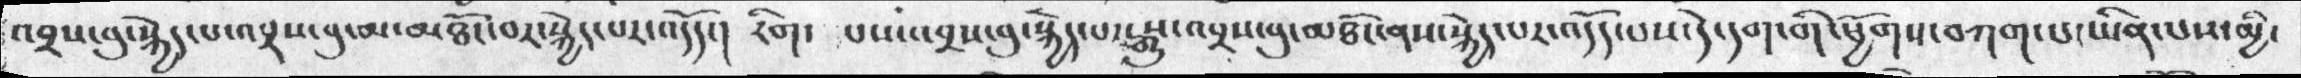འབྲས་བུ་སྐྱེད་པ་འབྲས་བུ་མ་མཐོང་བར་སྐྱེད་པར་འདོད་། རིག་  པས་འབྲས་བུ་སྐྱེད་པ་རྒྱུས་འབྲས་བུ་མཐོང་ནས་སྐྱེད་པར་འདོད་པས་དེ་དག་གི་ཕྱོགས་བཀག་པ་ཡིན་པས་མྱི་
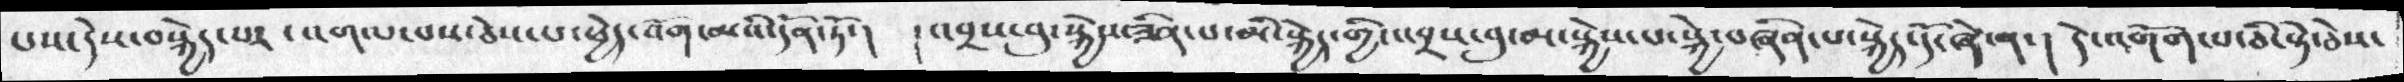པས་དེས་བསྐྱེད་པར་ འགལ་བས་ཅེས་པ་ཕྱེད་འོག་མའི་དོན་ཏོ་། །འབྲས་བུ་སྐྱེས་ཟིན་པ་མི་སྐྱེད་གྱི་འབྲས་བུ་མ་སྐྱེས་པ་སྐྱེ་བཞིན་པ་སྐྱེད་དོ་ཞེ་ན་། དེ་འགོག་པ་ཅི་སྟེ་ཅེས་
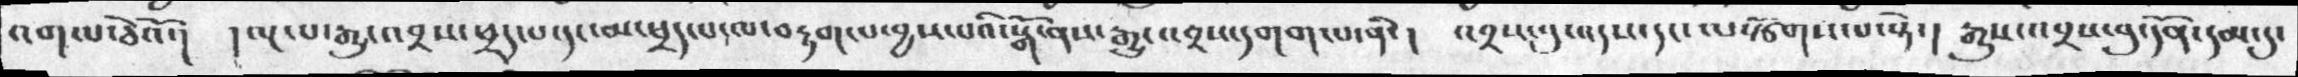འགལ་ཅེའོ་།  །ལྔ་པ་རྒྱུ་འབྲས་ཕྲད་པ་དང་མ་ཕྲད་པ་ལ་བརྟག་པ་བྱས་པའི་སྒོ་ནས་རྒྱུ་འབྲས་དགག་པ་ནི་།  འབྲས་བུ་འདས་དང་ལསྩོགས་པ་སྟེ་། རྒྱུས་འབྲས་བུ་དོན་དམ་དུ་
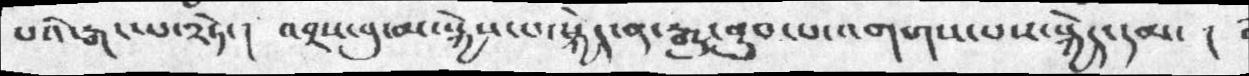པའི་རྒང་པ་༢ཏེ་།  འབྲས་བུ་མ་སྐྱེས་པ་སྐྱེད་ན་རྒྱུ་ནུབ་པ་འགགས་པས་སྐྱེད་དམ་།
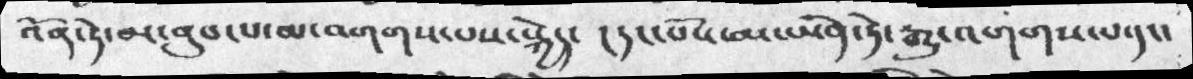འོན་ཏེ་མ་ནུབ་པ་མ་འགགས་པས་སྐྱེད་ །དང་པོས་མ་ཡིན་ཏེ་རྒྱུ་འགགས་པ་དང་
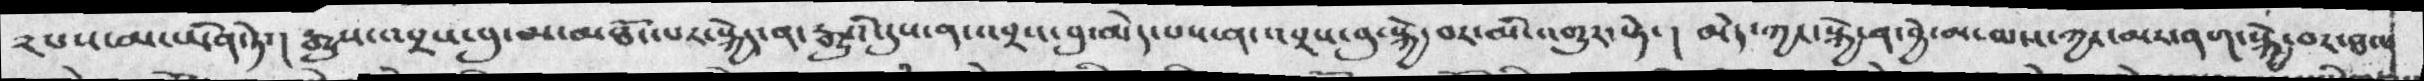༢པས་མ་ཡིན་ཏེ་། རྒྱུས་འབྲས་བུ་མ་མཐོང་པར་སྐྱེད་ན་རྒྱུའི་དུས་ན་འབྲས་བུ་མེད་པས་ན་འབྲས་བུ་སྐྱེ་བར་མི་འགྱུར་སྟེ་། མེད་ཀྱང་སྐྱེ་ན་བྱེ་མ་མས་ཀྱང་མར་ནག་སྐྱེ་བར་ཐལ
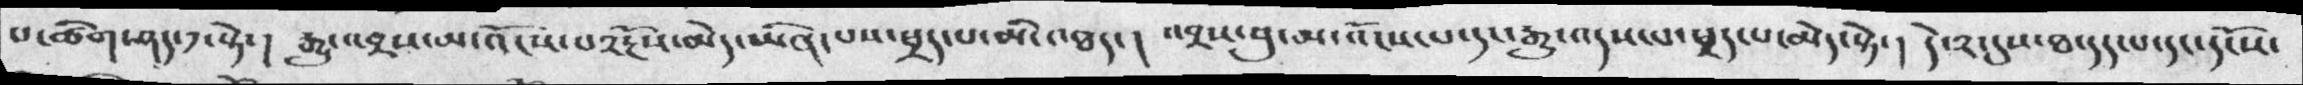པ་ཚིག་ཤད་༡་སྟེ་། རྒྱུ་འབྲས་མ་འོངས་པ༢རྔོས་མེད་ཡིན་པས་ཕྲད་པ་མི་འཐད་། འབྲས་བུ་མ་འོངས་པ་དང་རྒྱུ་འདས་པ་ཕྲད་པ་མེད་སྟེ་། དེ་༢་དུས་ཐ་དད་པ་དང་དངོས་
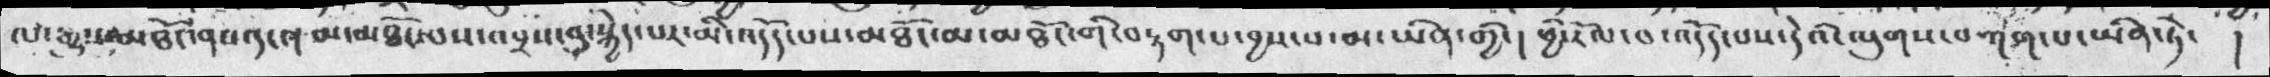ལ་རྒྱུས་མཐོང་ནས་དང་། མ་མཐོང་པས་འབྲས་བུ་སྐྱེད་པར་མི་འདོད་པས་མཐོང་གི་བརྟག་པ་བྱས་པ་མ་ཡིན་གྱི་། ཕྱི་རོལ་བ་འདོད་པས་དེའི་ལུགས་བཀག་པ་ཡིན་ཏེ་ །
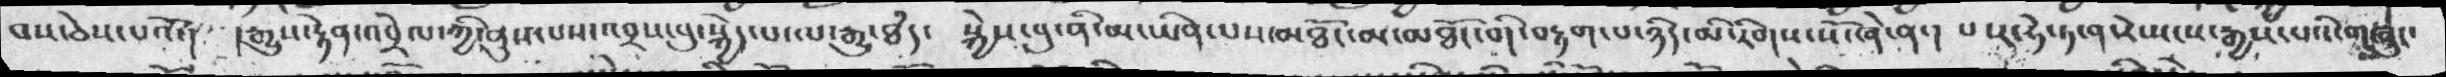བས་ཅེས་པའོ་།  །རྒྱུས་རྟེན་འབྲེལ་ཀྱི་ནུས་པས་འབྲས་བུ་སྐྱེད་པ་ལ་རྒྱུ་ཐཾད་ སྐྱེས་བུ་ནི་མ་ཡིན་པས་མཐོང་མ་མཐོང་གི་བརྟག་པ་ཉིད་མི་རིགས་སོ་ཞེ་ན་། པ་ར་ཧེ་ཏ་ན་རེ་སངས་རྒྱས་པའི་གཞུང་
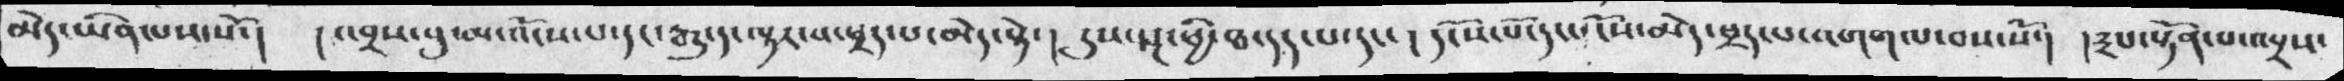མེད་ཡིན་པས་སོ་།  །འབྲས་བུ་མ་འོངས་པ་དང་རྒྱུ་དང་ལྟར་བ་ཕྲད་པ་མེད་སྟེ་། དུས་སྔ་ཕྱི་ཐ་དད་པ་དང་། དངོས་པོ་དང་དངོས་མེད་ཕྲད་པ་འགག་པ་བས་སོ་། །༣པ་སྟོན་པ་འབྲས་
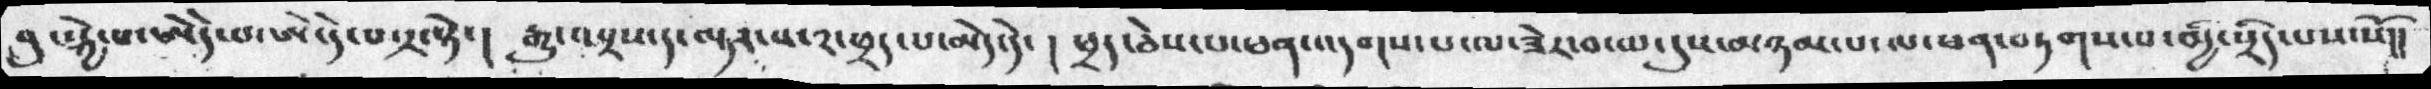བུ་སྐྱེ་པ་ཨེདེ་པ་ཨེ་དེ་པ་༢་སྟེ་། རྒྱུ་འབྲས་ད་ལྟར་པ་༢་ཕྲད་པ་མེད་དེ་། ཕྲད་ཅེས་པ་ཕན་འདགས་པ་ལ་ཟེར་བ་ལ་དུས་མཉམ་པ་ལ་ཕན་བཏགས་པ་མྱི་སྲིད་པས་སོ།།
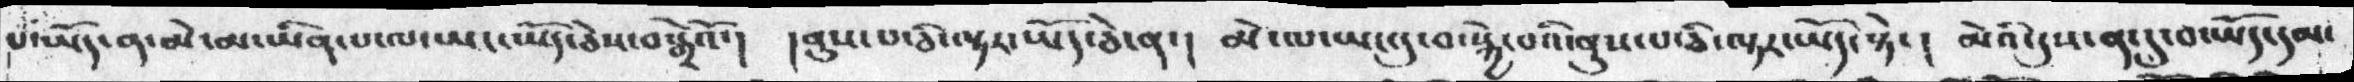པ་ཡདོ་ན་མེ་མ་ཡིན་པ་ལ་ཡང་ཡོད་ཅེས་བསྒྲེའོ་།  །ནུས་པ་ཅི་ལྟར་ཡོད་ཅེ་ན་།  མེ་ལ་ཡང་དུ་བ་སྐྱེ་བའི་ནུས་པ་ཅི་ལྟར་ཡོད་སྟེ་། མེའི་དུས་ན་དུ་བ་ཡོད་དམ་
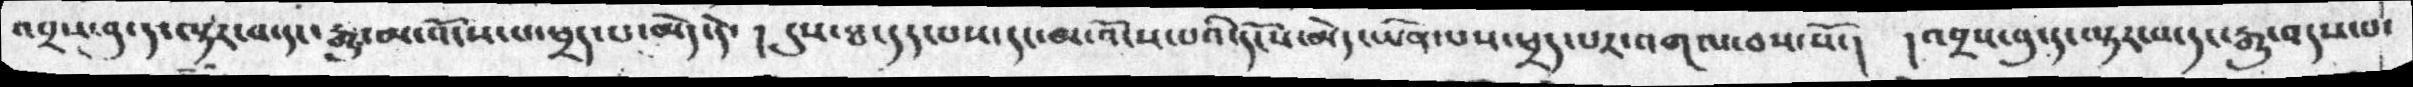འབྲས་བུ་ད་ལྟར་བ་དང་རྒྱུ་མ་འོངས་པ་ཕྲད་པ་མེད་དེ་། དུས་ཐ་དད་པས་དང་མ་འོངས་པའི་དངོས་མེད་ཡིན་པས་ཕྲད་པར་འགལ་བས་སོ་།  །འབྲས་བུ་ད་ལྟར་བ་དང་རྒྱུ་འདས་པ་
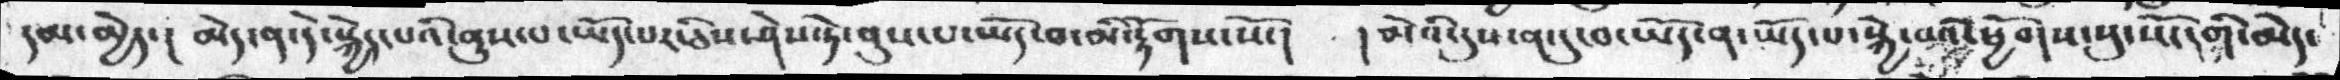དམ་མྱེད་། མེད་ན་དེ་སྐྱེད་པའི་ནུས་པ་ཡོད་པར་ཅིས་ཤེས་ཏེ་ནུས་པ་ཡོད་བ་མི་རྟོགས་སོ་།  །མེའི་དུས་ན་དུ་བ་ཡོད་པ་སྐྱེ་བའི་ཕྱོགས་སུ་སོ་།གི་མེད་
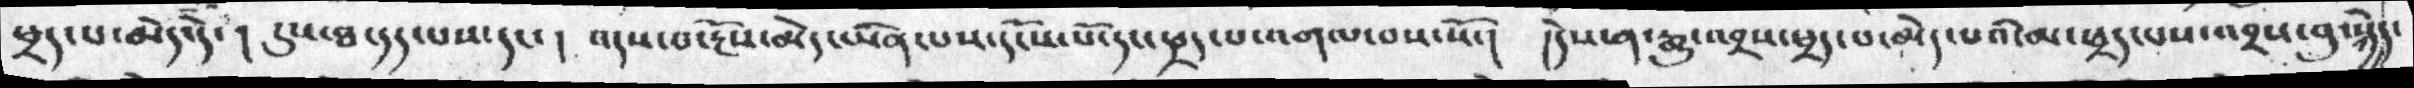ཕྲད་པ་མེད་དེ་། དུས་ཏ་དད་པས་དང་། འདས་པ་རྔོས་མེད་ཡིན་པས་དངོས་པོ་དང་ཕྲད་པ་འགལ་བས་སོ་། །དེས་ན་རྒྱུ་འབྲས་ཕྲད་པ་མེད་པའི་མ་ཕྲད་པས་འབྲས་བུ་སྐྱེད་
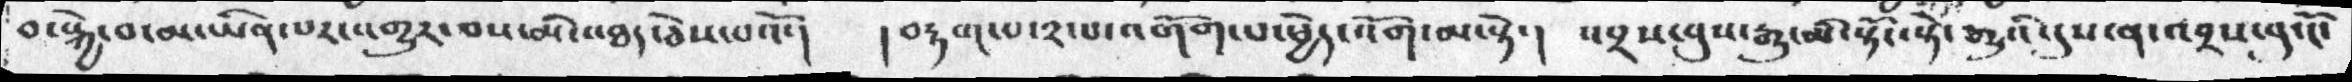བ་སྐྱེ་བ་མ་ཡིན་པར་འགྱུར་བས་མི་འཐད་ཅེས་པའོ་།  །བརྟག་པ་༢་པ་འགོག་པ་ཕྱེད་འོག་མ་སྟེ་། འབྲས་བུ་རྒྱུ་མི་སྟོང་སྟེ་རྒྱུའི་དུས་ན་འབྲས་བུ་ངོ་
